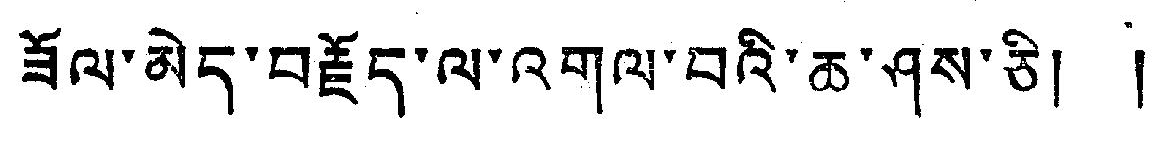ཟོལ་མེད་བརྗོད་ལ་འགལ་བའི་ཆ་ཤས་ཅི། །
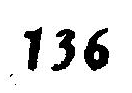136
